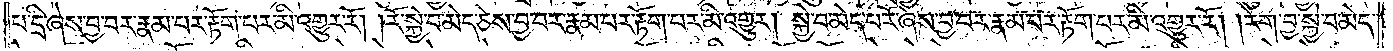པ་དྲི་ཞེས་བྱ་བར་རྣམ་པར་རྟོག་པར་མི་འགྱུར་རོ། །རོ་སྐྱེ་བ་མེད་ཅེས་བྱ་བར་རྣམ་པར་རྟོག་པར་མི་འགྱུར། སྐྱེ་བ་མེད་པ་རོ་ཞེས་བྱ་བར་རྣམ་པར་རྟོག་པར་མི་འགྱུར་རོ། །རེག་བྱ་སྐྱེ་བ་མེད་
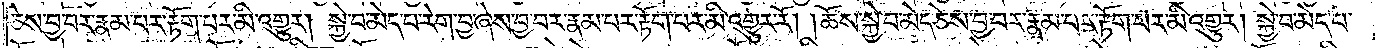ཅེས་བྱ་བར་རྣམ་པར་རྟོག་པར་མི་འགྱུར། སྐྱེ་བ་མེད་པ་རེག་བྱ་ཞེས་བྱ་བར་རྣམ་པར་རྟོག་པར་མི་འགྱུར་རོ། །ཆོས་སྐྱེ་བ་མེད་ཅེས་བྱ་བར་རྣམ་པར་རྟོག་པར་མི་འགྱུར། སྐྱེ་བ་མེད་པ་
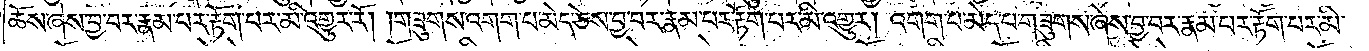ཆོས་ཞེས་བྱ་བར་རྣམ་པར་རྟོག་པར་མི་འགྱུར་རོ། །གཟུགས་འགག་པ་མེད་ཅེས་བྱ་བར་རྣམ་པར་རྟོག་པར་མི་འགྱུར། འགག་པ་མེད་པ་གཟུགས་ཞེས་བྱ་བར་རྣམ་པར་རྟོག་པར་མི་
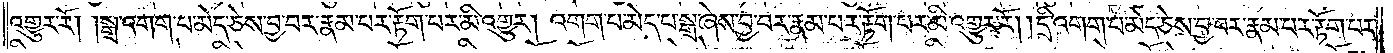འགྱུར་རོ། །སྒྲ་འགག་པ་མེད་ཅེས་བྱ་བར་རྣམ་པར་རྟོག་པར་མི་འགྱུར། འགག་པ་མེད་པ་སྒྲ་ཞེས་བྱ་བར་རྣམ་པར་རྟོག་པར་མི་འགྱུར་རོ། །དྲི་འགག་པ་མེད་ཅེས་བྱ་བར་རྣམ་པར་རྟོག་པར་
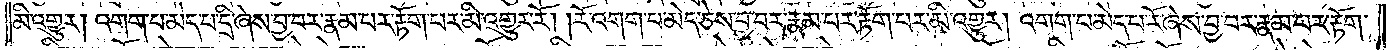མི་འགྱུར། འགག་པ་མེད་པ་དྲི་ཞེས་བྱ་བར་རྣམ་པར་རྟོག་པར་མི་འགྱུར་རོ། །རོ་འགག་པ་མེད་ཅེས་བྱ་བར་རྣམ་པར་རྟོག་པར་མི་འགྱུར། འགག་པ་མེད་པ་རོ་ཞེས་བྱ་བར་རྣམ་པར་རྟོག་
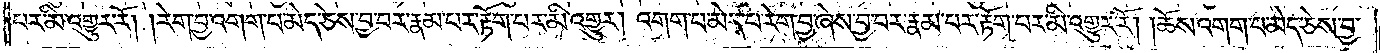པར་མི་འགྱུར་རོ། །རེག་བྱ་འགག་པ་མེད་ཅེས་བྱ་བར་རྣམ་པར་རྟོག་པར་མི་འགྱུར། འགག་པ་མེད་པ་རེག་བྱ་ཞེས་བྱ་བར་རྣམ་པར་རྟོག་པར་མི་འགྱུར་རོ། །ཆོས་འགག་པ་མེད་ཅེས་བྱ་
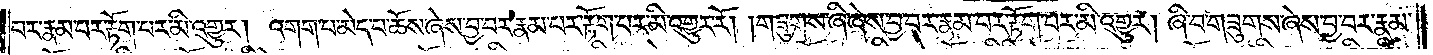བར་རྣམ་པར་རྟོག་པར་མི་འགྱུར། འགག་པ་མེད་པ་ཆོས་ཞེས་བྱ་བར་རྣམ་པར་རྟོག་པར་མི་འགྱུར་རོ། །གཟུགས་ཞི་ཞེས་བྱ་བར་རྣམ་པར་རྟོག་པར་མི་འགྱུར། ཞི་བ་གཟུགས་ཞེས་བྱ་བར་རྣམ་
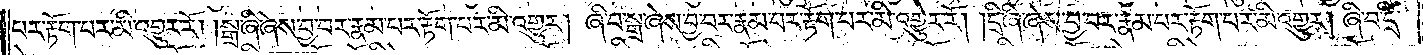པར་རྟོག་པར་མི་འགྱུར་རོ། །སྒྲ་ཞི་ཞེས་བྱ་བར་རྣམ་པར་རྟོག་པར་མི་འགྱུར། ཞི་བ་སྒྲ་ཞེས་བྱ་བར་རྣམ་པར་རྟོག་པར་མི་འགྱུར་རོ། །དྲི་ཞི་ཞེས་བྱ་བར་རྣམ་པར་རྟོག་པར་མི་འགྱུར། ཞི་བ་དྲི་
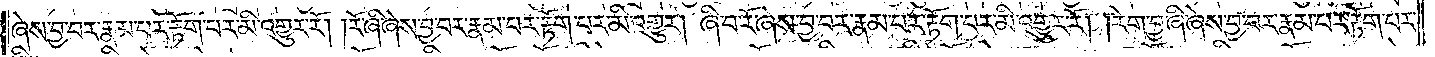ཞེས་བྱ་བར་རྣམ་པར་རྟོག་པར་མི་འགྱུར་རོ། །རོ་ཞི་ཞེས་བྱ་བར་རྣམ་པར་རྟོག་པར་མི་འགྱུར། ཞི་བ་རོ་ཞེས་བྱ་བར་རྣམ་པར་རྟོག་པར་མི་འགྱུར་རོ། །རེག་བྱ་ཞི་ཞེས་བྱ་བར་རྣམ་པར་རྟོག་པར་
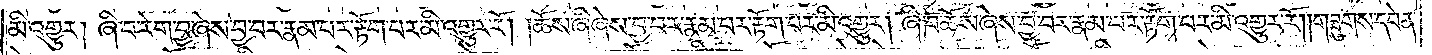མི་འགྱུར། ཞི་བ་རེག་བྱ་ཞེས་བྱ་བར་རྣམ་པར་རྟོག་པར་མི་འགྱུར་རོ། །ཆོས་ཞི་ཞེས་བྱ་བར་རྣམ་པར་རྟོག་པར་མི་འགྱུར། ཞི་བ་ཆོས་ཞེས་བྱ་བར་རྣམ་པར་རྟོག་པར་མི་འགྱུར་རོ། །གཟུགས་དབེན་
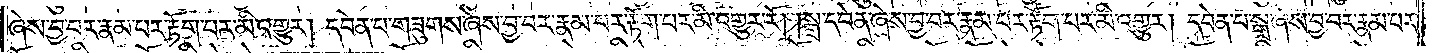ཞེས་བྱ་བར་རྣམ་པར་རྟོག་པར་མི་འགྱུར། དབེན་པ་གཟུགས་ཞེས་བྱ་བར་རྣམ་པར་རྟོག་པར་མི་འགྱུར་རོ། །སྒྲ་དབེན་ཞེས་བྱ་བར་རྣམ་པར་རྟོག་པར་མི་འགྱུར། དབེན་པ་སྒྲ་ཞེས་བྱ་བར་རྣམ་པར་
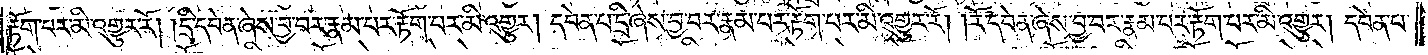རྟོག་པར་མི་འགྱུར་རོ། །དྲི་དབེན་ཞེས་བྱ་བར་རྣམ་པར་རྟོག་པར་མི་འགྱུར། དབེན་པ་དྲི་ཞེས་བྱ་བར་རྣམ་པར་རྟོག་པར་མི་འགྱུར་རོ། །རོ་དབེན་ཞེས་བྱ་བར་རྣམ་པར་རྟོག་པར་མི་འགྱུར། དབེན་པ་
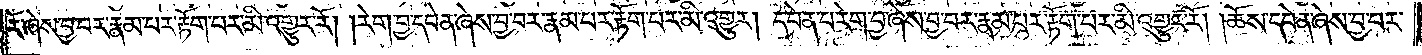རོ་ཞེས་བྱ་བར་རྣམ་པར་རྟོག་པར་མི་འགྱུར་རོ། །རེག་བྱ་དབེན་ཞེས་བྱ་བར་རྣམ་པར་རྟོག་པར་མི་འགྱུར། དབེན་པ་རེག་བྱ་ཞེས་བྱ་བར་རྣམ་པར་རྟོག་པར་མི་འགྱུར་རོ། །ཆོས་དབེན་ཞེས་བྱ་བར་
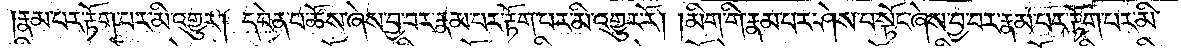རྣམ་པར་རྟོག་པར་མི་མི་འགྱུར། དབེན་པ་ཆོས་ཞེས་བྱ་བར་རྣམ་པར་རྟོག་པར་མི་འགྱུར་རོ། །མིག་གི་རྣམ་པར་ཤེས་པ་སྟོང་ཞེས་བྱ་བར་རྣམ་པར་རྟོག་པར་མི་
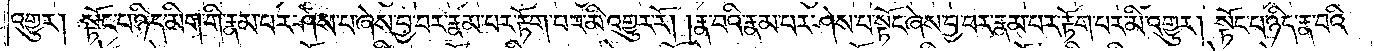འགྱུར། སྟོང་པ་ཉིད་མིག་གི་རྣམ་པར་ཤེས་པ་ཞེས་བྱ་བར་རྣམ་པར་རྟོག་པར་མི་འགྱུར་རོ། །རྣ་བའི་རྣམ་པར་ཤེས་པ་སྟོང་ཞེས་བྱ་བར་རྣམ་པར་རྟོག་པར་མི་འགྱུར། སྟོང་པ་ཉིད་རྣ་བའི་
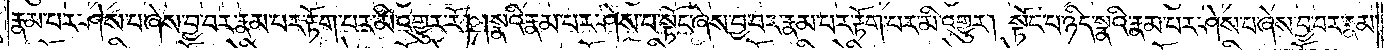རྣམ་པར་ཤེས་པ་ཞེས་བྱ་བར་རྣམ་པར་རྟོག་པར་མི་འགྱུར་རོ། །སྣའི་རྣམ་པར་ཤེས་པ་སྟོང་ཞེས་བྱ་བར་རྣམ་པར་རྟོག་པར་མི་འགྱུར། སྟོང་པ་ཉིད་སྣའི་རྣམ་པར་ཤེས་པ་ཞེས་བྱ་བར་རྣམ་
